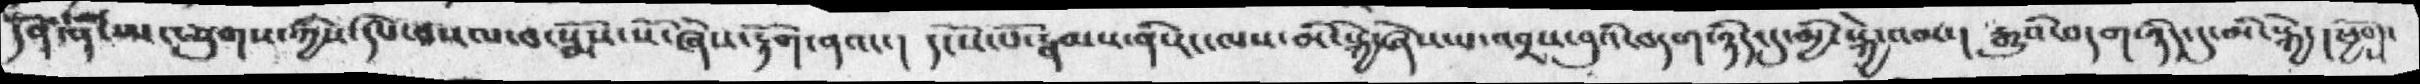དོནན་ནི་ཡང་ཕུགས་ཀྱིས་དཔེ་བསལ་བ་སྨོས་སོ་ཞེས་རྟོག་ནའང་།  དངོས་པོ་རྣམས་ནི་རང་ལས་མི་སྐྱེ་ཞེས་པ་འབྲས་བུའི་བདག་ཉིད་དུ་མྱི་སྐྱེ་འམ་།   རྒྱུའི་བདག་ཉིད་དུ་མི་སྐྱེ་།  ཕྱོགས་
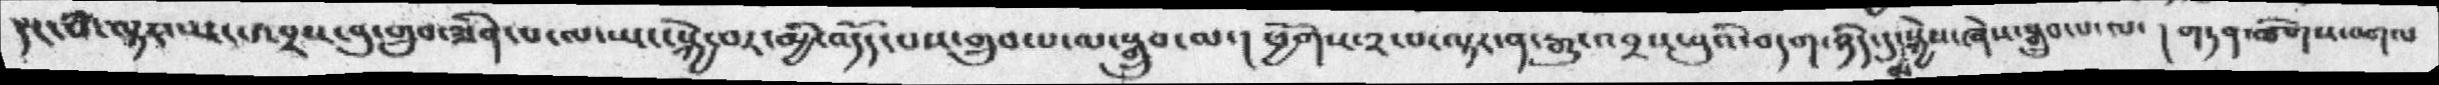དང་པོ་ལྟར་ཡང་འབྲས་བུ་གྲུབ་ཟིན་པ་ལ་ཡང་སྐྱེ་བར་མྱི་འདོད་པས་གྲུབ་པ་ལ་སྒྲུབ་ལ་།  ཕྱོགས་༢་པ་ལྟར་ན་རྒྱུ་འབྲས་བུའི་བདག་ཉིད་མ་སྐྱེས་ཞེས་སྒྲུབ་པ་ལ་།   གཏན་ཚིགས་འགལ
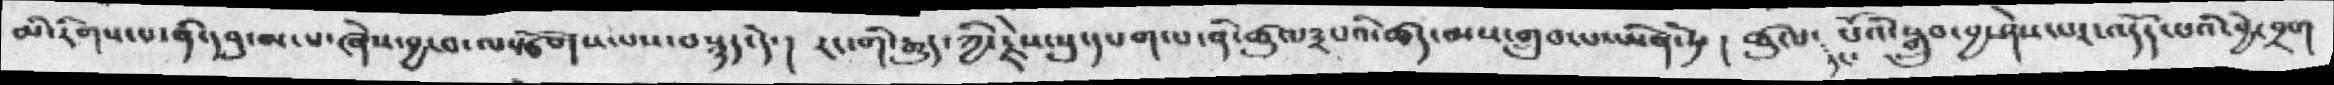མི་རིགས་པ་ནི་དབུ་མ་པ་ཞེས་བྱ་བ་ལསྩོགས་པས་བསྙད་དེ་།  རང་གི་རྒྱུད་ཀྱི་རྗེས་སུ་དཔག་པ་ནི་ཚུལ་༣པའི་ཚད་མས་གྲུབ་པ་ཡིན་ཏེ་།   ཚུལ་དང་པོའི་སྒྲུབ་བྱ་ཤེས་པར་འདོད་པའི་བྱེ་བྲག
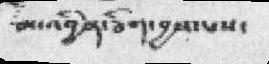མ་འབྱིན་ཅིག་བྱས་པས་
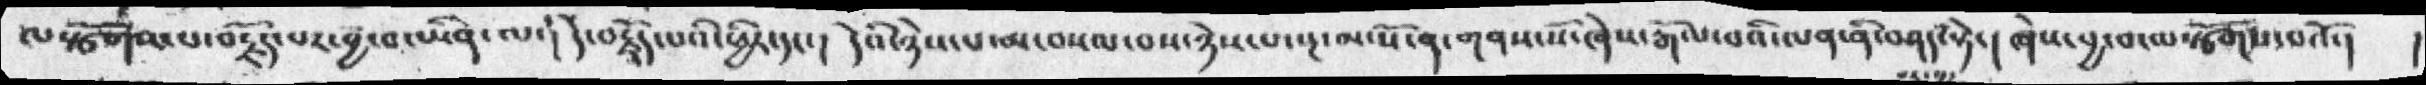ལསྩོགས་པ་བརྗོད་པར་བྱ་བ་ཡིན་ལ་།  དེ་བརྗོད་པའི་ཕྱིར་དང་།  དེའི་ཉེས་་པ་མ་བསལ་བས་ཉེས་པ་སྔ་མ་སོ་ན་གནས་སོ་ཞེས་རྒོལ་བའི་ལན་ནི་བཤད་པར་བྱ་སྟེ་།  ཞེས་བྱ་བ་ལསྩོགས་པའོ་།
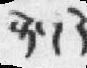སྟེ་། དེ
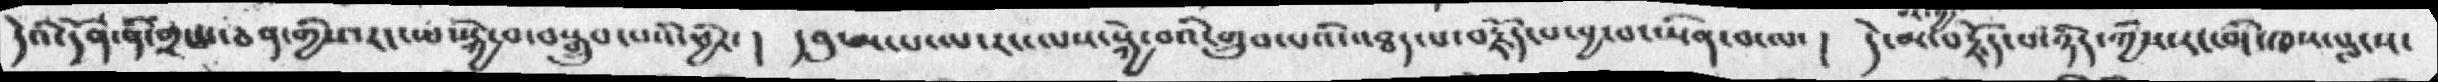དེའི་དོན་ནི་གྲངས་ཅན་གྱིས་རང་ལ་སྐྱེ་བ་བསྒྲུབ་པའི་ཕྱིར་།  དབུ་མ་པ་ལ་རང་ལས་སྐྱེ་བའི་གྲུབ་པའི་འཐད་པ་བརྗོད་པ་བྱ་བ་ཡིན་བ་ལ་།  དེ་མ་བརྗོད་པ་ཉིད་ཀྱིས་རང་གི་ཁས་བླངས་
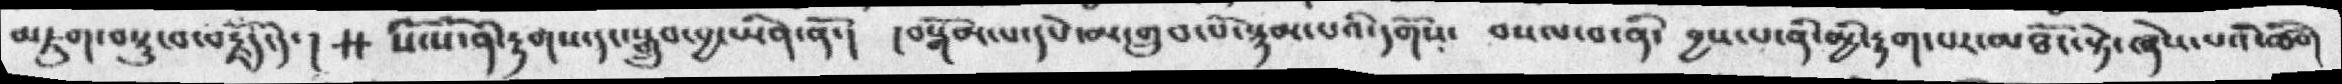མཇུག་བསྡུ་བ་བརྗོད་དེ་།  སོ་སོ་ནི་རྟགས་དང་སྒྲུབ་བྱ་ཡིན་ནོ་།  །བསྒོམ་པ་དཔེ་མ་གྲུབ་པོ་སྙམ་པའི་དགོས་  བསལ་བ་ནི་ བྱས་པ་ནི་མྱི་རྟག་པར་མཐོང་སྟེ་ཞེས་པའི་ཚིག
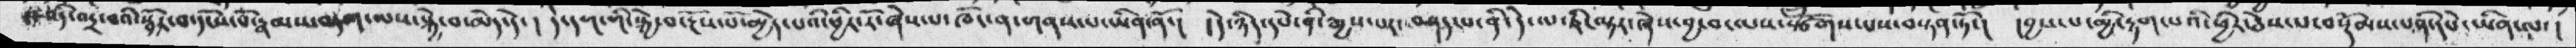འདི་འདྲ་བའི་སྦྱོར་བ་དངོས་པོ་རྣམས་བདག་ལས་སྐྱེ་བ་མེད་དེ་།  དེ་དག་གི་སྐྱེ་བ་རྔོས་པོ་མྱེད་པའི་ཕྱིར་རོ་ཞེས་པ་ཁོང་གནས་པ་ཡིན་ནོ་།  དེ་ཉིད་དཔེ་ནི་རྒྱས་པར་བཤད་བཤད་པ་ནི་དེ་ལ་ཇི་ལྟར་ཞེས་བྱ་བ་ལས་སྩོགས་པས་བསྟན་ཏོ་།  །བྱས་པ་མྱི་རྟག་པའི་ཕྱིར་ཅེས་པ་བསྡོམས་པ་ནི་དཔེ་ཡིན་ལ་།
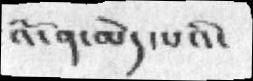འོ་ན་མེད་པའི་
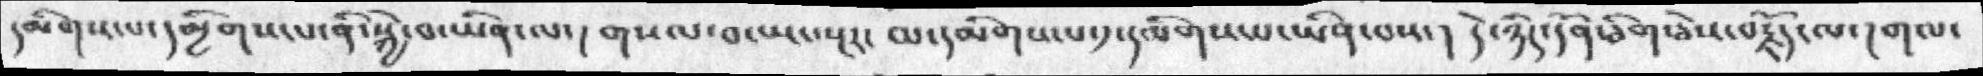དམིགས་པ་དམྱིགས་པ་ནི་སྐྱེ་བ་ཡིན་ལ་། གསལ་བ་ཡང་སྔར་ མ་དམིགས་པ་༡་དམིགས་པ་ཡིན་པས་། དེ་ཉིད་དོན་ཅིག་ཅེས་བརྗོད་ལ་། གལ་
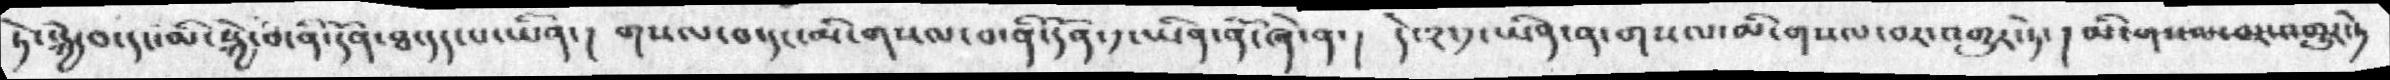ཏེ་སྐྱེ་བ་དང་མི་སྐྱེ་བ་ནི་དོན་ཐ་དད་པ་ཡིན་།  གསལ་བ་དང་མི་གསལ་བ་ནི་དོན་༡་ཡིན་ནོ་ཞེ་ན་།   དེ་༢་༡་ཡིན་ན་གསལ་མི་གསལ་བར་འགྱུར་ཏེ་།  མི་གསལ་བར་འགྱུར་ཏེ
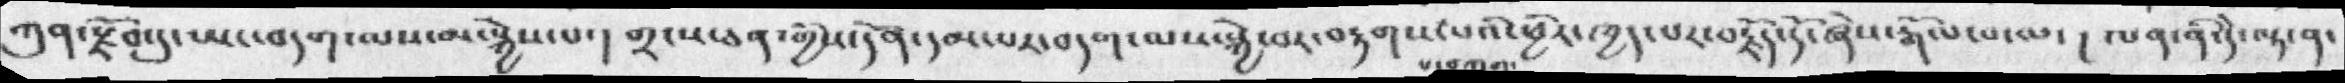ཀུན་རྫོབ་དུ་ཡང་བདག་ལས་མ་སྐྱེས་པ་།  གྲངས་ཅན་གྱིས་དོན་དམ་པར་བདག་ལས་སྐྱེ་བར་བརྟགས་པ་བཀག་པའི་ཕྱིར་ཁྱད་པར་བརྫོད་དོ་ཞེས་རྒོལཔ་ལ་།  ལན་ནི་དེ་ལྟ་ན་
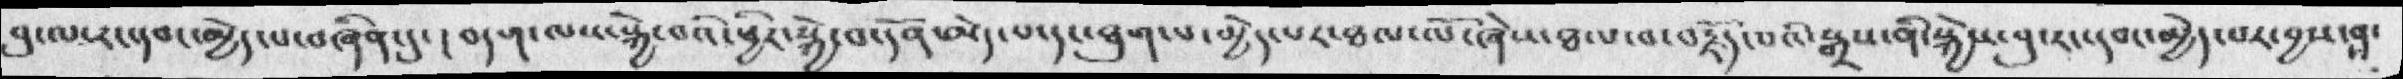བུ་ལ་རང་དབང་མྱེད་པ་བཞིན་དུ་།  བདག་ལས་སྐྱེ་བའི་ཕྱིར་སྐྱེ་བ་དོན་མེད་པ་དང་ཐུག་པ་མྱེད་པར་ཐལ་ལོ་ཞེས་ཐལ་བ་བརྗོད་པའི་སྒྲས་ནི་སྐྱེས་བུ་རང་དབང་མྱེད་པར་བྱས་ན་
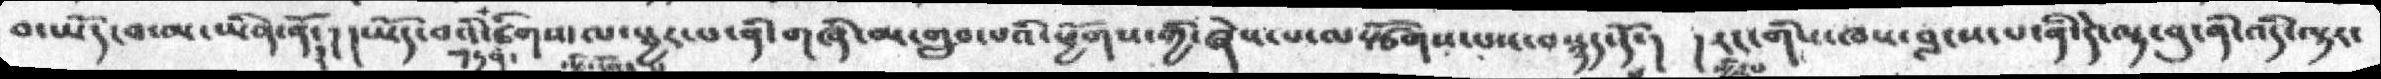བ་ཡོད་བ་མ་ཡིན་ནོ་།།  ཡོད་བའི་གཏན་ཚིགས་ལ་སྦྱར་བ་ནི་གཞ་མ་གྲུབ་པའི་ཕྱོགས་ཀྱི་ཞེས་པ་ལསྩོགས་པས་བསྙད་དོ་། རང་གིས་ཁས་བླངས་པ་ནི་དེ་ལྟ་བུ་ནི་འདི་ལྟར་
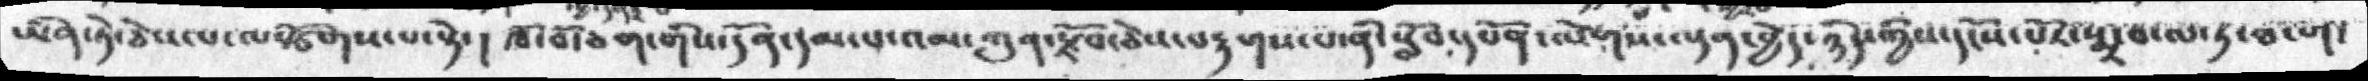ཡིན་ཏེ་ཅེས་པ་ལསྩོགས་པ་སྟེ་།  ཁོ་བོ་ཅན་གིས་དོན་དམ་པ་འམ་ཀུན་རྫོབ་ཅེས་བརྟགས་པ་ནི་སློབ་དཔོན་ལེགས་ལྡན་བྱེད་ཉིད་ཀྱིས་དངོས་པོར་སྨྲ་བ་ལ་ཏ་ཐ་ག་
